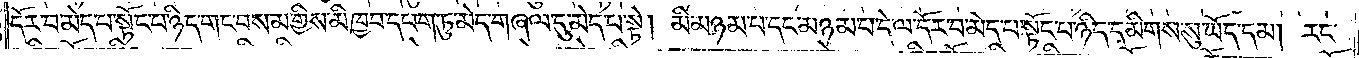དོར་བ་མེད་པ་སྟོང་པ་ཉིད་གང་བསམ་གྱིས་མི་ཁྱབ་དཔག་ཏུ་མེད་གཞལ་དུ་མེད་པ་སྟེ། མི་མཉམ་པ་དང་མཉམ་པ་དེ་ལ་དོར་བ་མེད་པ་སྟོང་པ་ཉིད་དམིགས་སུ་ཡོད་དམ། རང་
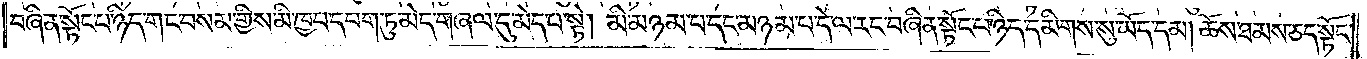བཞིན་སྟོང་པ་ཉིད་གང་བསམ་གྱིས་མི་ཁྱབ་དཔག་ཏུ་མེད་གཞལ་དུ་མེད་པ་སྟེ། མི་མཉམ་པ་དང་མཉམ་པ་དེ་ལ་རང་བཞིན་སྟོང་པ་ཉིད་དམིགས་སུ་ཡོད་དམ། ཆོས་ཐམས་ཅད་སྟོང་
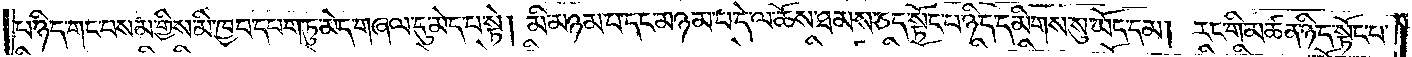པ་ཉིད་གང་བསམ་གྱིས་མི་ཁྱབ་དཔག་ཏུ་མེད་གཞལ་དུ་མེད་པ་སྟེ། མི་མཉམ་པ་དང་མཉམ་པ་དེ་ལ་ཆོས་ཐམས་ཅད་སྟོང་པ་ཉིད་དམིགས་སུ་ཡོད་དམ། རང་གི་མཚན་ཉིད་སྟོང་པ་
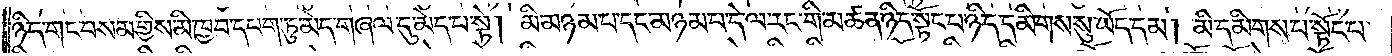ཉིད་གང་བསམ་གྱིས་མི་ཁྱབ་དཔག་ཏུ་མེད་གཞལ་དུ་མེད་པ་སྟེ། མི་མཉམ་པ་དང་མཉམ་པ་དེ་ལ་རང་གི་མཚན་ཉིད་སྟོང་པ་ཉིད་དམིགས་སུ་ཡོད་དམ། མི་དམིགས་པ་སྟོང་པ་
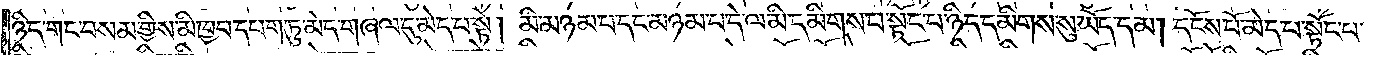ཉིད་གང་བསམ་གྱིས་མི་ཁྱབ་དཔག་ཏུ་མེད་གཞལ་དུ་མེད་པ་སྟེ། མི་མཉམ་པ་དང་མཉམ་པ་དེ་ལ་མི་དམིགས་པ་སྟོང་པ་ཉིད་དམིགས་སུ་ཡོད་དམ། དངོས་པོ་མེད་པ་སྟོང་པ་
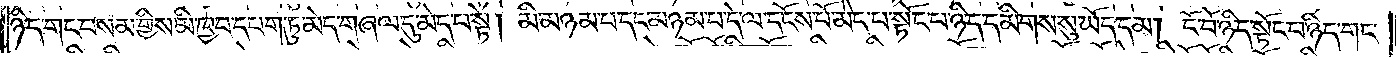ཉིད་གང་བསམ་གྱིས་མི་ཁྱབ་དཔག་ཏུ་མེད་གཞལ་དུ་མེད་པ་སྟེ། མི་མཉམ་པ་དང་མཉམ་པ་དེ་ལ་དངོས་པོ་མེད་པ་སྟོང་པ་ཉིད་དམིགས་སུ་ཡོད་དམ། ངོ་བོ་ཉིད་སྟོང་པ་ཉིད་གང་
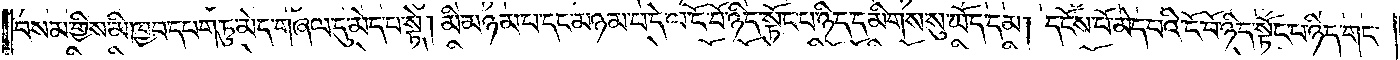བསམ་གྱིས་མི་ཁྱབ་དཔག་ཏུ་མེད་གཞལ་དུ་མེད་པ་སྟེ། མི་མཉམ་པ་དང་མཉམ་པ་དེ་ལ་ངོ་བོ་ཉིད་སྟོང་པ་ཉིད་དམིགས་སུ་ཡོད་དམ། དངོས་པོ་མེད་པའི་ངོ་བོ་ཉིད་སྟོང་པ་ཉིད་གང་
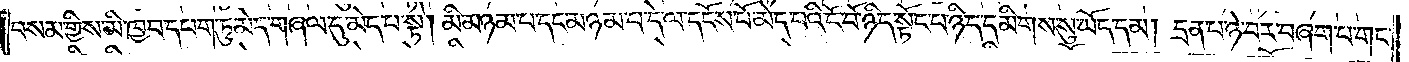བསམ་གྱིས་མི་ཁྱབ་དཔག་ཏུ་མེད་གཞལ་དུ་མེད་པ་སྟེ། མི་མཉམ་པ་དང་མཉམ་པ་དེ་ལ་དངོས་པོ་མེད་པའི་ངོ་བོ་ཉིད་སྟོང་པ་ཉིད་དམིགས་སུ་ཡོད་དམ། དྲན་པ་ཉེ་བར་བཞག་པ་གང་
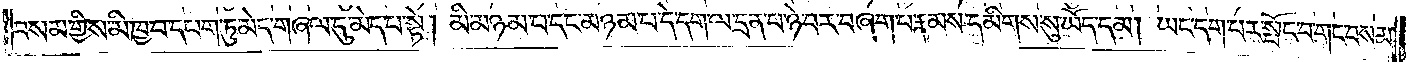བསམ་གྱིས་མི་ཁྱབ་དཔག་ཏུ་མེད་གཞལ་དུ་མེད་པ་སྟེ། མི་མཉམ་པ་དང་མཉམ་པ་དེ་དག་ལ་དྲན་པ་ཉེ་བར་བཞག་པ་རྣམས་དམིགས་སུ་ཡོད་དམ། ཡང་དག་པར་སྤོང་བ་གང་བསམ་
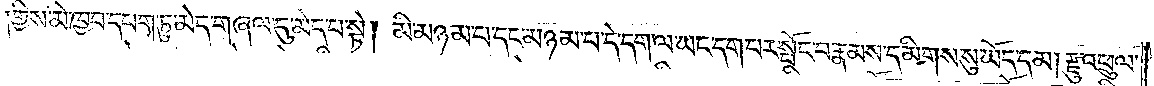གྱིས་མི་ཁྱབ་དཔག་ཏུ་མེད་གཞལ་དུ་མེད་པ་སྟེ། མི་མཉམ་པ་དང་མཉམ་པ་དེ་དག་ལ་ཡང་དག་པར་སྤོང་བ་རྣམས་དམིགས་སུ་ཡོད་དམ། རྫུ་འཕྲུལ་
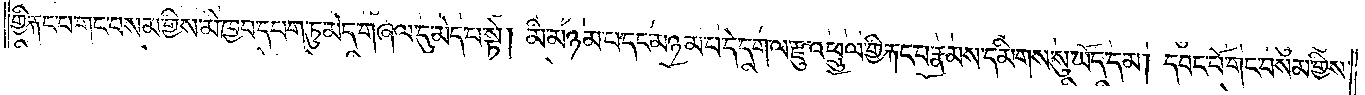གྱི་རྐང་པ་གང་བསམ་གྱིས་མི་ཁྱབ་དཔག་ཏུ་མེད་གཞལ་དུ་མེད་པ་སྟེ། མི་མཉམ་པ་དང་མཉམ་པ་དེ་དག་ལ་རྫུ་འཕྲུལ་གྱི་རྐང་པ་རྣམས་དམིགས་སུ་ཡོད་དམ། དབང་པོ་གང་བསམ་གྱིས་
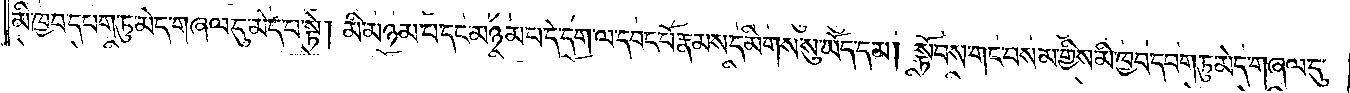མི་ཁྱབ་དཔག་ཏུ་མེད་གཞལ་དུ་མེད་པ་སྟེ། མི་མཉམ་པ་དང་མཉམ་པ་དེ་དག་ལ་དབང་པོ་རྣམས་དམིགས་སུ་ཡོད་དམ། སྟོབས་གང་བསམ་གྱིས་མི་ཁྱབ་དཔག་ཏུ་མེད་གཞལ་དུ་
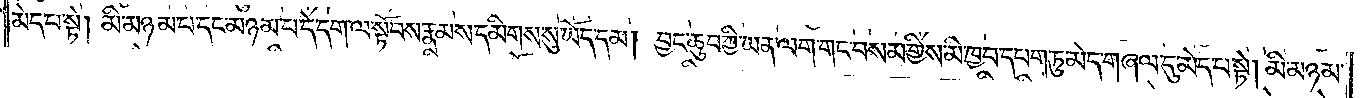མེད་པ་སྟེ། མི་མཉམ་པ་དང་མཉམ་པ་དེ་དག་ལ་སྟོབས་རྣམས་དམིགས་སུ་ཡོད་དམ། བྱང་ཆུབ་ཀྱི་ཡན་ལག་གང་བསམ་གྱིས་མི་ཁྱབ་དཔག་ཏུ་མེད་གཞལ་དུ་མེད་པ་སྟེ། མི་མཉམ་
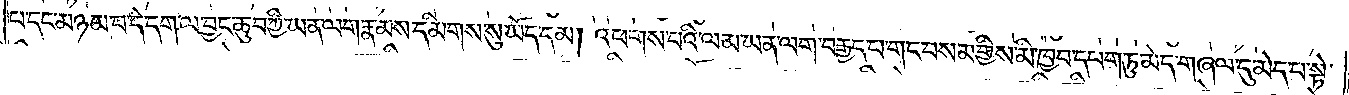པ་དང་མཉམ་པ་དེ་དག་ལ་བྱང་ཆུབ་ཀྱི་ཡན་ལག་རྣམས་དམིགས་སུ་ཡོད་དམ། འཕགས་པའི་ལམ་ཡན་ལག་བརྒྱད་པ་གང་བསམ་གྱིས་མི་ཁྱབ་དཔག་ཏུ་མེད་གཞལ་དུ་མེད་པ་སྟེ་
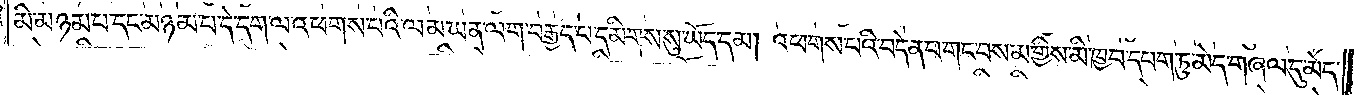མི་མཉམ་པ་དང་མཉམ་པ་དེ་དག་ལ་འཕགས་པའི་ལམ་ཡན་ལག་བརྒྱད་པ་དམིགས་སུ་ཡོད་དམ། འཕགས་པའི་བདེན་པ་གང་བསམ་གྱིས་མི་ཁྱབ་དཔག་ཏུ་མེད་གཞལ་དུ་མེད་
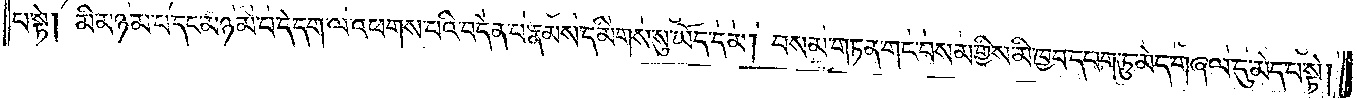པ་སྟེ། མི་མཉམ་པ་དང་མཉམ་པ་དེ་དག་ལ་འཕགས་པའི་བདེན་པ་རྣམས་དམིགས་སུ་ཡོད་དམ། བསམ་གཏན་གང་བསམ་གྱིས་མི་ཁྱབ་དཔག་ཏུ་མེད་གཞལ་དུ་མེད་པ་སྟེ།
